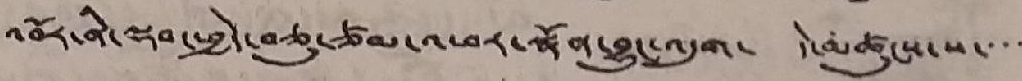འབོར་ནི་ལྡབ་ཕྱེད་བཅུ་ཙམ་འཕར་སྣོན་བྱུང་འདུག་ དེ་མཚུངས་ས་་་་
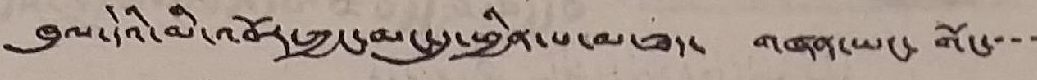ཁུལ་དེའི་མི་འབོར་ཀྱང་མང་དུ་ཕྱིན་པ་མ་ཟད་ གཞན་ཡང་ གོང་་་་
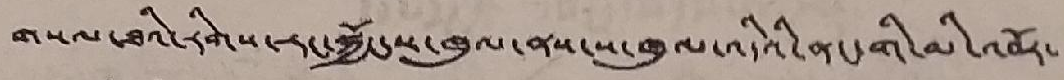གསལ་ཐའི་རིགས་རང་སྐྱོང་ས་ཁུལ་ནས་ས་ཁུལ་འདིའི་ནང་གི་མི་འབོར་
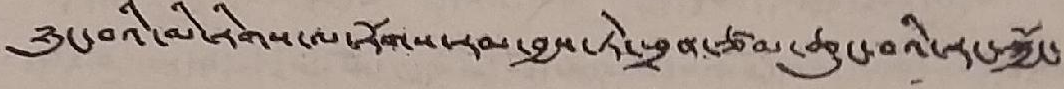ཉུང་བའི་མི་རིགས་ལ་རོགས་རམ་བྱས་ཏེ་ཕྲན་ཙམ་ཆུང་བའི་རང་སྐྱོང་
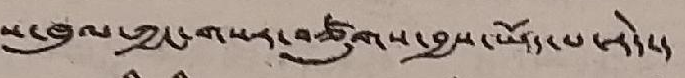ས་ཁུལ་ཀྱང་གསར་བཙུགས་བྱས་ཡོད་པ་རེད་།
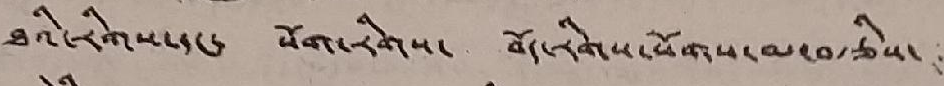ཐའི་རིགས་དང་ སོག་རིགས་ བོད་རིགས་སོགས་མ་བརྩིས་
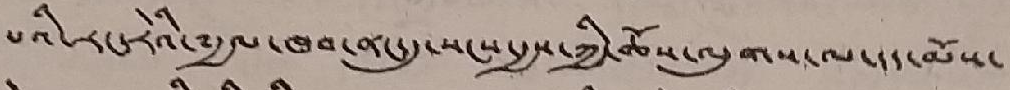པའི་རང་རེའི་༸རྒྱལ་ཁབ་ནང་དུ་སངས་རྒྱས་ཀྱི་ཆོས་ལུགས་ལ་དད་མོས་
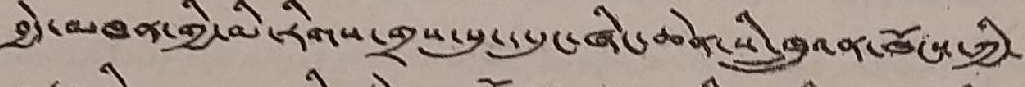བྱེད་མཁན་གྱི་མི་རིགས་གྲས་སུ་ད་དུང་ཞིང་ཆེན་སི་ཁྲུའན་ཁོངས་ཀྱི་
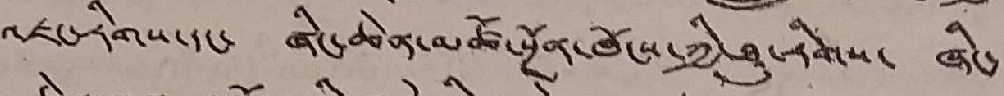འཇང་རིགས་དང་ ཞིང་ཆེན་མཚོ་སྔོན་ཁོངས་ཀྱི་ཐུ་རིགས་ ཞིང་
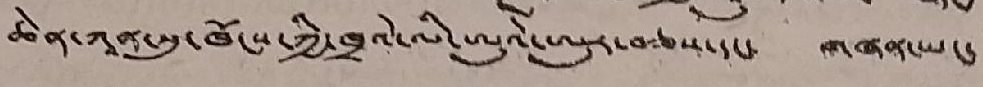ཆེན་ཀྭན་སུ་ཁོངས་ཀྱི་ཁྲའེ་ལི་ཨུའེ་ཨུར་བཅས་དང་ གཞན་ཡང་
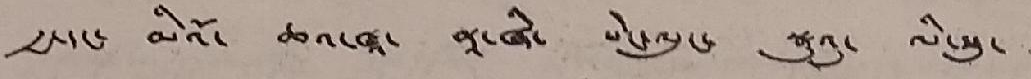རྒྱ་དང་ མིའོ་ ཆའ་ཁཱ་ ནཱ་ཞི་ པེང་ལུང་ སྣུའུ་ ལི་སུ་
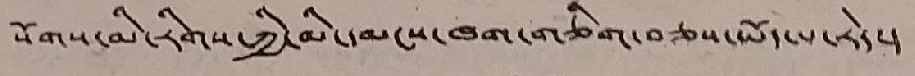སོགས་མི་རིགས་ཀྱི་མི་དམངས་ཁག་གཅིག་བཅས་ཡོད་པ་རེད་།
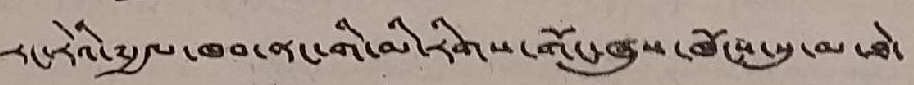རང་རེའི་༸རྒྱལ་ཁབ་ནང་གི་མི་རིགས་གོང་ཞུས་ཁོངས་སུ་མ་ཐེ་
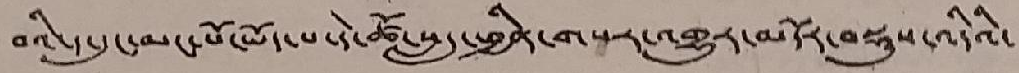བའི་ད་དུང་མང་པོ་དེ་ཚོ་སླད་ཕྱིན་གསར་འགྱུར་མདོར་བསྡུས་འདིའི་
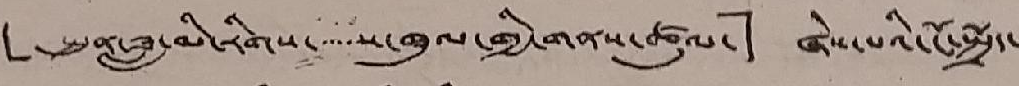「སྤུན་ཟླ་མི་རིགས་་་་་ས་ཁུལ་གྱི་གནས་ཚུལ་」 ཞེས་པའི་ངོ་སྤྲོད་
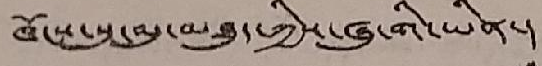ཁོངས་སུ་མུ་མཐུད་ཀྱིས་ཞུ་གི་ཡིན་།
